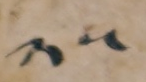༢༥
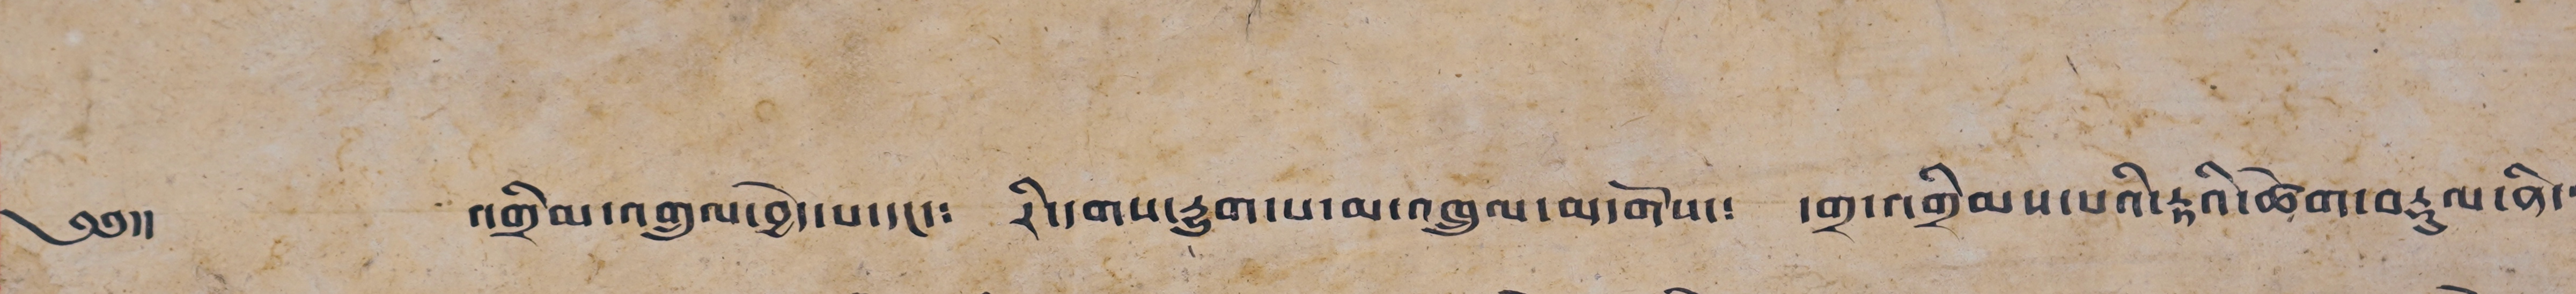༄༅།། འགྲིམ་འགྲུལ་བྱེད་པ་དང་༴ རི་དགས་རྒྱུག་པ་མ་འཁྲུལ་མདོགས་༴ དགྲ་འགྲིམས་པའི་རྟའི་ཚེག་བརྟུལ་ནི་
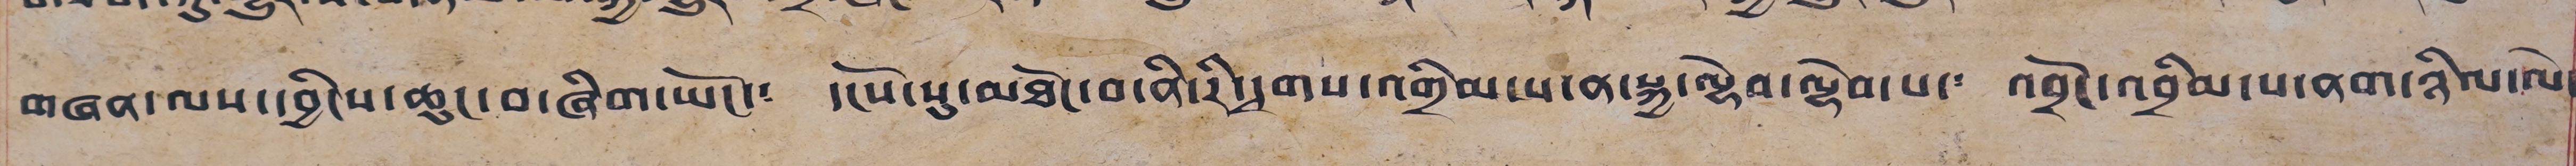གཞན་ལས་དབྱིངས་ཆུང་བ་ཞིག་ཡོང་༴ དངོས་སུ་མཐོང་བ་ནི་རི་དྭགས་འགྲིམ་པ་ན་སྐྱ་ལྷེབ་ལྷེབ་པ་༴ འབྲོང་འབྲིམ་པ་ནག་ཉིལ་ལེ་
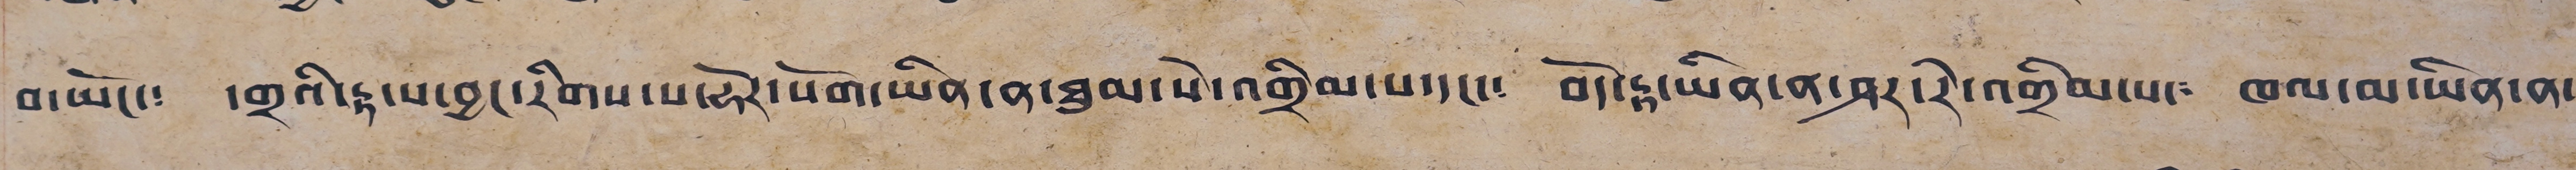བ་ཡོང་༴ དགྲའི་རྟ་པ་བྱང་རིགས་པ་ཧོར་སོག་ཡིན་ན་ཐུམ་སེ་འགྲིམ་པ་དང་༴ བོད་རྟ་ཡིན་ན་ཤར་རེ་འགྲིམ་པ་༴ ཁལ་མ་ཡིན་ན་
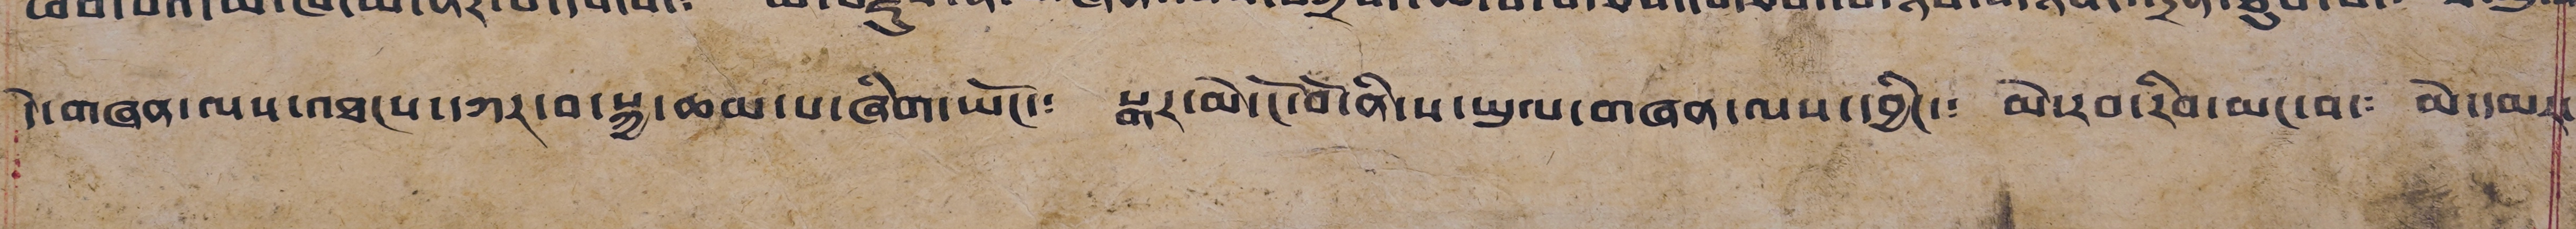དེ་གཞན་ལས་འཐངས་དཀར་བ་སྐྱ་ཆམ་པ་ཞིག་ཡོང་༴ སྒར་མེ་ངོ་བོ་ནི་ས་ཡུལ་གཞན་ལས་བྱིང་༴ མེ་རབ་རིབ་མང་བ་༴ མེ་དམར་
